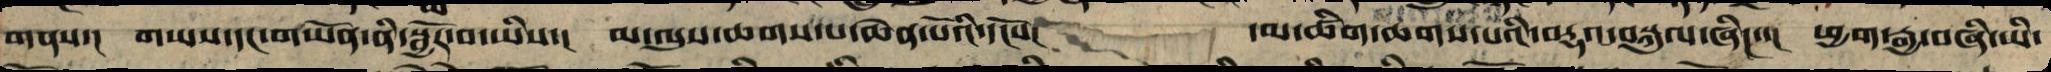གནས་། གཡས་དང་གཡོན་ནི་སྦྱོར་བ་ཡི་། མ་ལུས་ཆགས་པ་ཆེན་པོའི་དངོས་། དམ་ཚིག་ཆགས་པའི་བརྡའ་བསྐུལ་ཞིང་་། ཕྱག་རྒྱ་བཞི་ཡི་
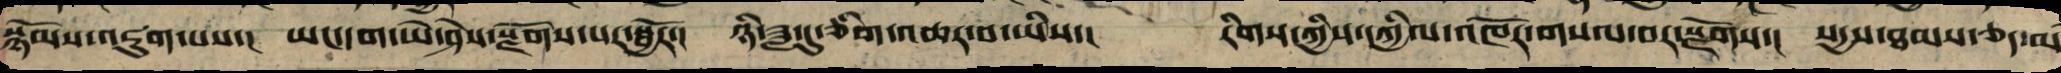སྙོམས་འཇུག་པས་། ཡང་དག་ཡེ་ཤེས་སྫོགས་པར་སྦྱོར་། ཉི་ཟླ་དུ་ཅིག་འཆར་བ་ཡིས་། རིགས་ཀྱིས་དཀྱིལ་འཁོར་གསལ་བར་སྫོགས་། སདྱས་ཐམས་ཅད་མ
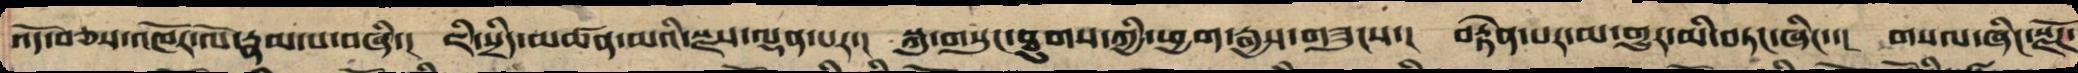འོད་བཅས་འཁོར་ལོ་རྣམ་པ་བཞི་། ཇི་སྲིད་མཚན་མའི་སྫས་ལྡན་པར་། སྐུ་གསུང་ཐུགས་ཀྱི་ཕྱག་རྒྱས་གཟུངས་། བརྟེན་པར་མ་གྱུར་མི་བཏང་ཞིང་་། གསལ་ཞིང་སྫོཌ་
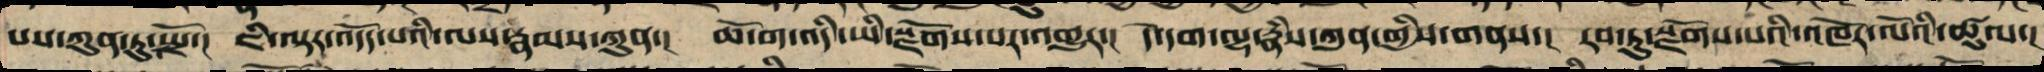པས་ཀུན་ཏུ་སྤྲོ་། ཇི་ལྟར་འདོད་པའི་ལས་རྣམས་ཀུན་། ཆོ་ག་འདི་ཡི་སྫོགས་པར་འགྱུར་། དེ་དག་ལྷ་རྣཾས་ཀུན་གྱིས་གནས་། རབ་ཏུ་སྫོགས་པའི་འཁོར་ལོའི་ཚུལ་།
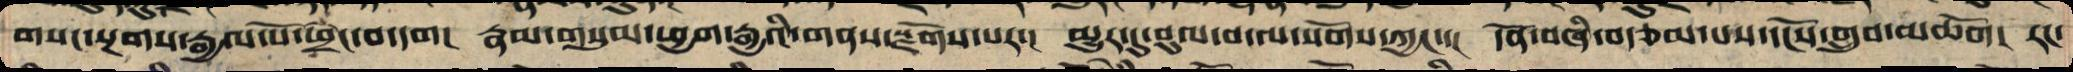གསང་སྔགས་རྒྱལ་པོའི་ཕྲེང་བ་དག། རྣམ་གསུམ་ཕྱག་རྒྱའི་གནས་སྫོགས་པར་། མྱུར་དུ་བུལ་བ་ལ་སོགས་ཀྱང་་། དོན་བཞི་བརྩམས་པས་དངོས་གྲུབ་མཆོག། རང་
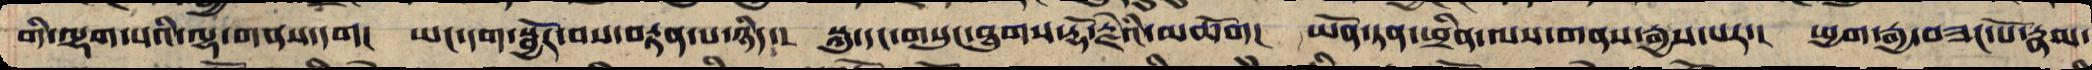གི་ལྷག་པའི་ལྷ་གནས་དག། ཡང་དག་སྦྱོར་བས་བརྟན་པ་ཉིད། སྐུ་དང་གསུང་ཐུགས་རྡོ་རྗེའི་མཆོག། ཡོན་ཏན་ཕྲིན་ལས་གནས་རྒྱས་པར་། ཕྱག་རྒྱ་བཟང་པོ་རྣམ་
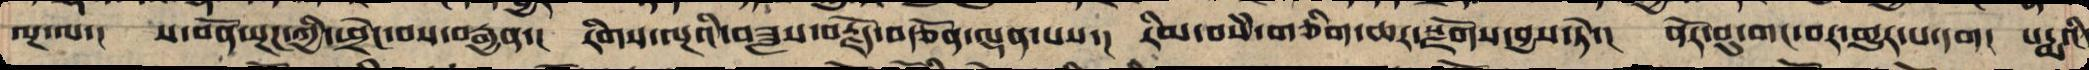ལྔ་ལ་། ས་བོན་སྔཌ་ཀྱི་ཕྲེང་བས་བརྒྱན་། རིགས་ལྔའི་བཟླས་བརྗོད་བརྩོན་ལྡན་པས་། རིམ་བསཾ་ཅིག་ཆར་སྫོགས་བྱས་ཏེ་། ནོར་བུ་གང་བར་གྱུར་པ་དག། པདྨའི་
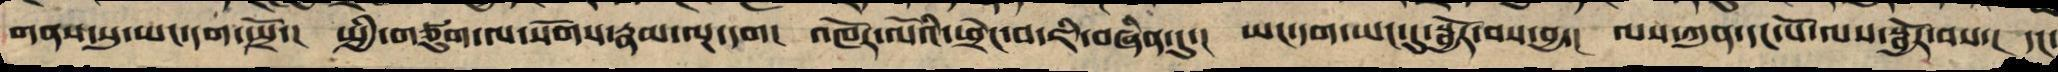གནས་སུ་ཡང་དག་སྤྲོ་། སྤྱི་གཙུག་ལ་སོགས་རྣམ་ལྔ་དག། འཁོར་ལོའི་ཕྲེང་བ་ཇི་བཞིན་དུ། ཡང་དང་ཡང་དུ་སྦྱོར་བས་བྱ་། ལས་ཀུན་དང་པོ་ལས་སྦྱོར་བས་། དང་
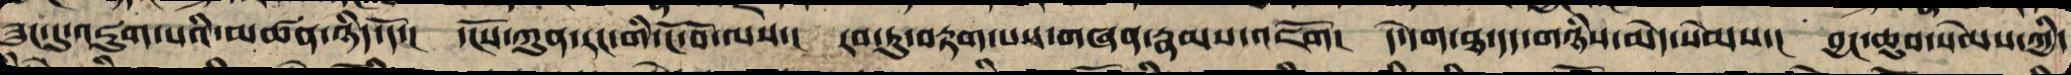ཟུང་དུ་འཇུག་པའི་མཚན་ཉིད་དོ་། དངོས་ཀུན་རང་གི་ངོ་བོ་ལས་། རབ་ཏུ་བརྟགས་པས་གཞན་རྣམས་འཇོག། དེ་དག་ཐ་དད་གཉིས་མེད་སེམས་། བྱང་ཆུབ་སེམས་ཀྱི་
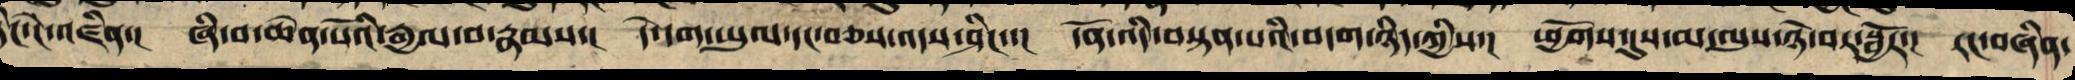ཏིང་ངེ་འཛིན་། ཞི་བ་ཆེན་པོའི་རྒྱལ་བ་རྣམས་། དེ་དག་ཡུལ་དང་བཅས་འདས་ཤིང་་། དོན་འདི་བསྟན་པའི་བདག་ཉིད་ཀྱིས་། ཕྱོགས་དུས་མ་ལུས་ཉེ་བར་སྦྱོར་། རང་བཞིན་
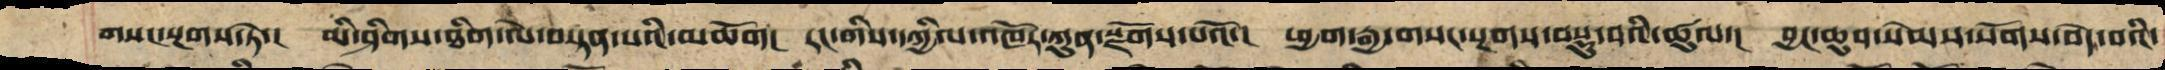གསང་སྔགས་ཏེ་། མི་ཤིགས་ཐིག་ལེ་བསྟན་པའི་མཆོག། རང་གི་དཀྱིལ་འཁོར་ཀུན་སྫོགས་པའོ་། ཕྱག་རྒྱ་གསང་སྔགས་བསྡུ་བའི་ཚུལ་། བྱང་ཆུབ་སེམས་སོགས་བདེ་བའི་
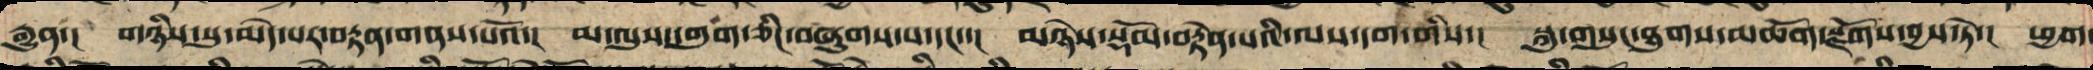རྒྱུན་། གཉིས་སུ་མེད་པར་བརྟན་གནས་པའོ་། མ་ལུས་དགུག་ཅིང་བཞུགས་པ་དང་་། མཉེས་སྡོམ་བརྟེན་པའི་ལས་དག་གིས་། སྐུ་གསུང་ཐུགས་མཆོག་སྫོགས་བྱས་ཏེ་། ཕྱག
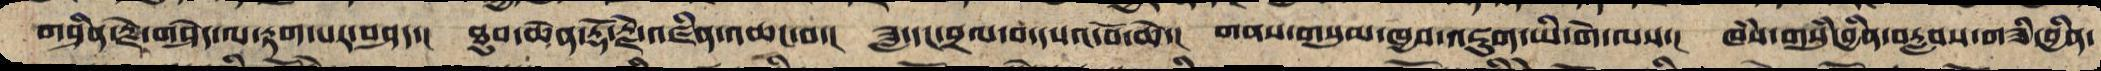གཤིན་རྗེ་གཤེད་ལ་རྟག་པར་བཤད་། ཐུབ་ཆེན་རྡོ་རྗེ་འཛིན་འཆང་བ་། ཟླ་དང་བྲལ་བ་དཔའ་བོ་ཆེ་། གནས་གསུམ་ཁྱབ་འཇུག་ཡི་གེ་ལས་། ཁཾས་གསུཾ་བྱིན་བརླབས་གཟི་བྱིན་
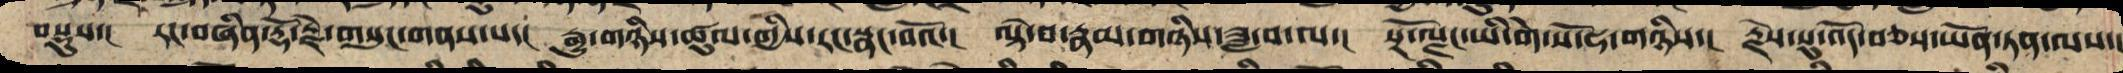བསྡུས་། རང་བཞིན་རྡོ་རྗེ་གསུང་གནས་པ་། རྒྱུ་གཉིས་ཚུལ་གྱིས་རང་སྣང་བའོ་། ལྟེ་བ་རྣམ་གཉིས་ཟླ་བ་ལ་། སྔོ་ལྗང་ཡི་གེ་སོ་ཧ་གཉིས། རྗེས་སུ་འོད་བཅས་ཡོན་ཏན་ལས་།
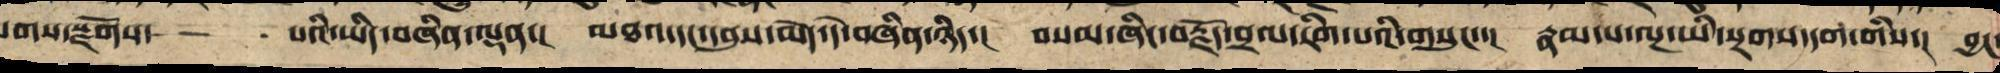སགས་སྫོགས་ - པའི་ཡིད་བཞིན་ལྡན་། མཐའ་དང་དབུས་མེད་དེ་བཞིན་ཉིད་། བསམ་ཞིང་བརྗོད་བྲལ་རིག་པའི་གསུང་་། རྣམ་པ་ལྔ་ཡི་སྔགས་དག་གིས་། བྱང་
